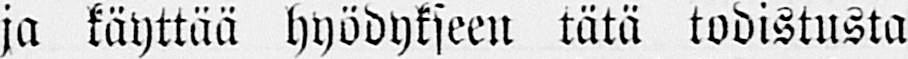ja käyttää hyödykseen tätä todistusta
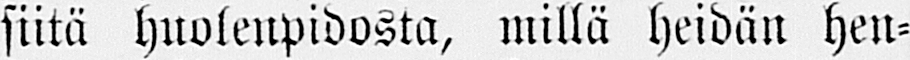siitä huolenpidosta, millä heidän hen-
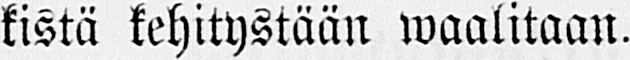kistä kehitystään waalitaan.
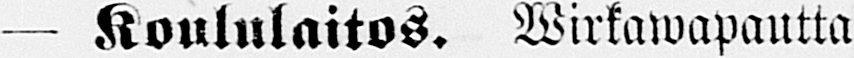— Koululaitos. Wirkawapautta
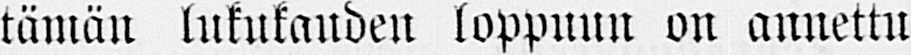tämän lukukauden loppuun on annettu
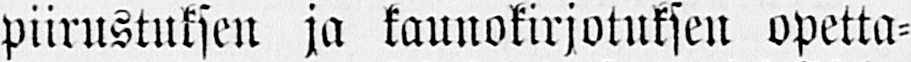piirustuksen ja kaunokirjotuksen opetta-
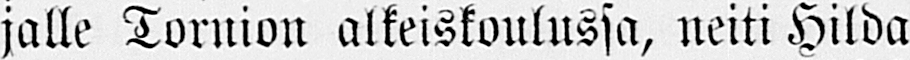jalle Tornion alkeiskoulussa, neiti Hilda
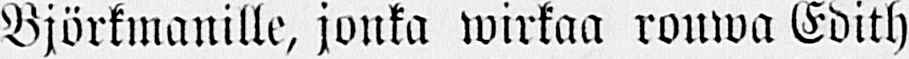Björkmanille, jonka wirkaa rouwa Edith
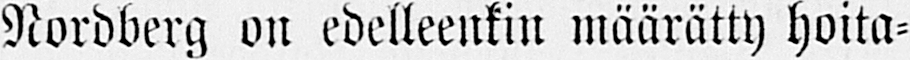Nordberg on edelleenkin määrätty hoita-
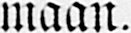maan.
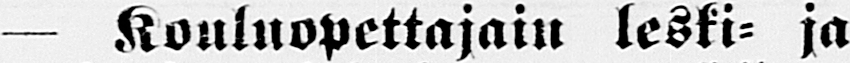— Kouluopettajain leski- ja
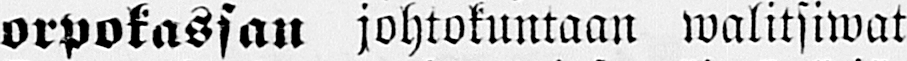orpokassan johtokuntaan walitsiwat
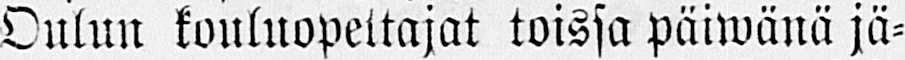Oulun kouluopettajat toissa päiwänä jä-
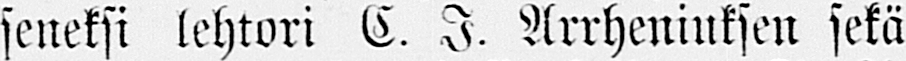seneksi lehtori C. I. Arrheniuksen sekä
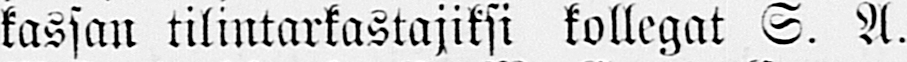kassan tilintarkastajiksi kollegat S. A.
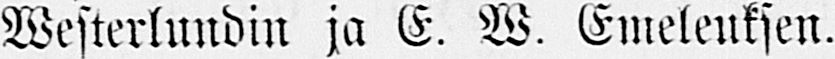Westerlundin ja E. W. Emeleuksen.
